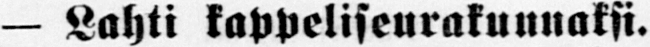— Lahti kappeliseurakunnaksi.
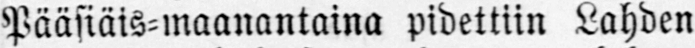Pääsiäis-maanantaina pidettiin Lahden
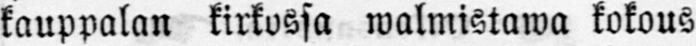kauppalan kirkossa walmistawa kokous
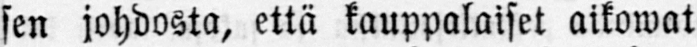sen johdosta, että kauppalaiset aikowat
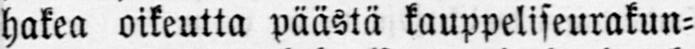hakea oikeutta päästä kauppeliseurakun-
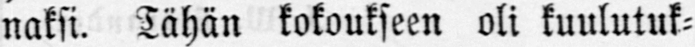naksi. Tähän kokoukseen oli kuulutuk-
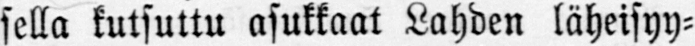sella kutsuttu asukkaat Lahden läheisyy-
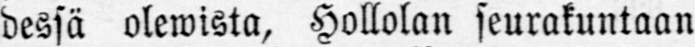dessä olewista, Hollolan seurakuntaan
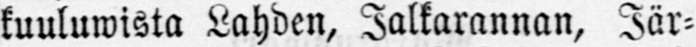kuuluwista Lahden, Jalkarannan, Jär-
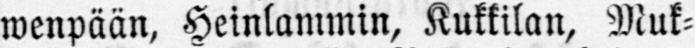wenpään, Heinlammin, Kukkilan, Muk-
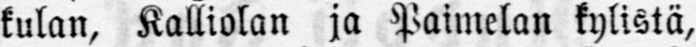kulan, Kalliolan ja Paimelan kylistä,
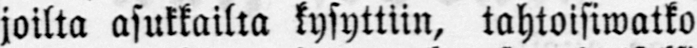joilta asukkailta kysyttiin, tahtoisiwatko
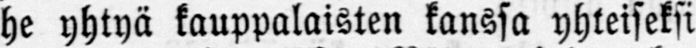he yhtyä kauppalaisten kanssa yhteiseksi
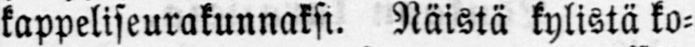kappeliseurakunnaksi. Näistä kylistä ko-
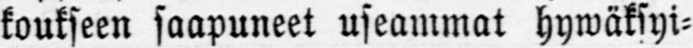koukseen saapuneet useammat hywäksyi-
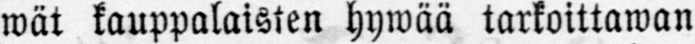wät kauppalaisten hywää tarkoittawan
